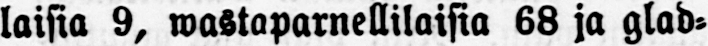laisia 9, wastaparnellilaisia 68 ja glad-
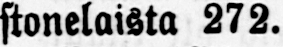stonelaista 272.
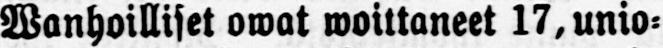Wanhoilliset owat woittaneet 17, unio-
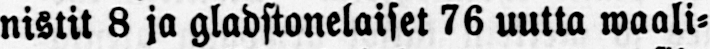nistit 8 ja gladstonelaiset 76 uutta waali-
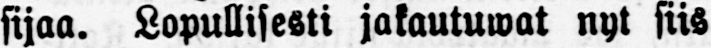sijaa. Lopullisesti jakautuwat nyt siis
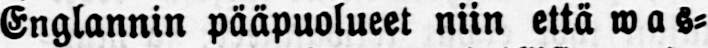Englannin pääpuolueet niin että was-
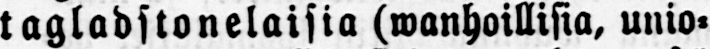tagladstonelaisia (wanhoillisia, unio-
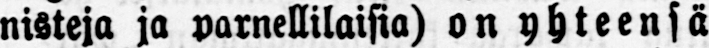nisteja ja parnellilaisia) on yhteensä
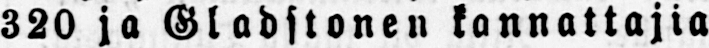320 ja Gladstonen kannattajia
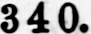340.
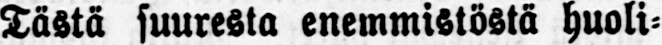Tästä suuresta enemmistöstä huoli-
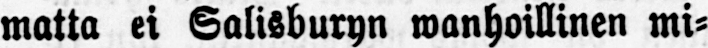matta ei Salisburyn wanhoillinen mi-
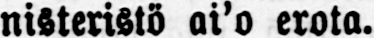nisteristö ai'o erota.
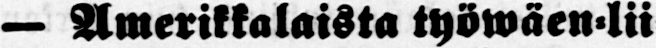— Amerikkalaista työwäen-lii-
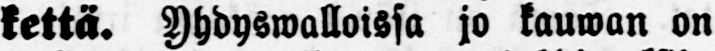kettä. Yhdyswalloissa jo kauwan on
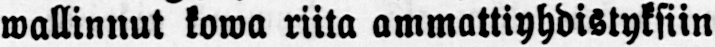wallinnut kowa riita ammattiyhdistyksiin
